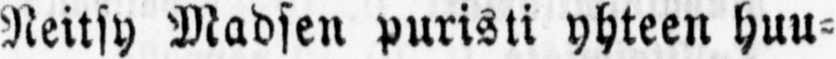Neitsy Madsen puristi yhteen huu-
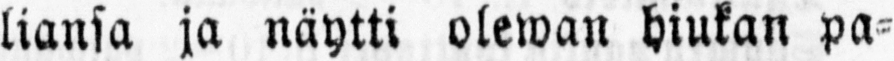liansa ja näytti olewan hiukan pa-
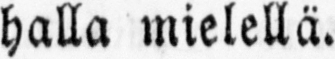halla mielellä.
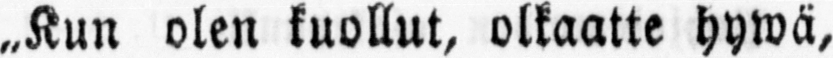„Kun olen kuollut, olkaatte hywä,
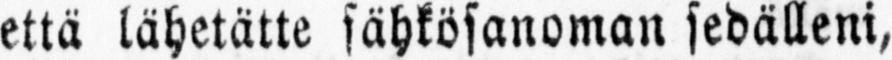että lähetätte sähkösanoman sedälleni,
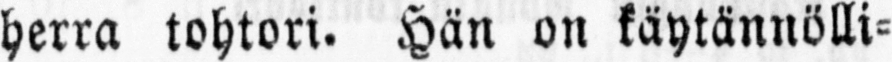herra tohtori. Hän on käytännölli-
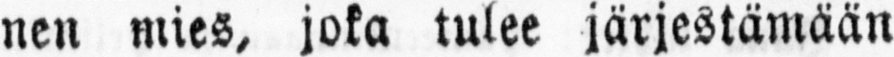nen mies, joka tulee järjestämään
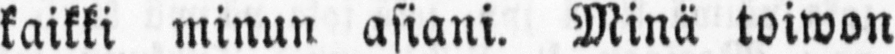kaikki minun asiani. Minä toiwon
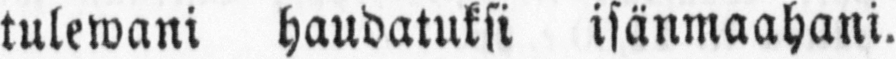tulewani haudatuksi isänmaahani.
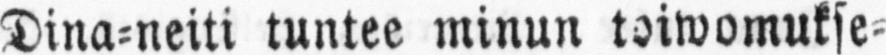Dina-neiti tuntee minun toiwomukse-
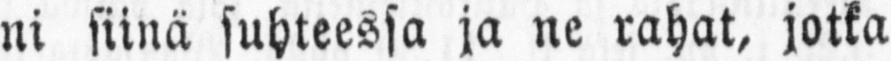ni siinä suhteessa ja ne rahat, jotka
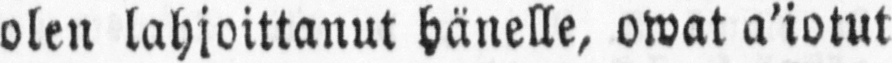olen lahjoittanut hänelle, owat a'iotut
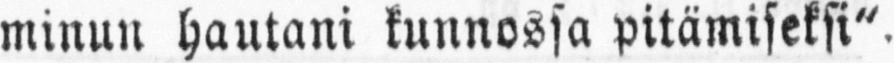minun hautani kunnossa pitämiseksi".
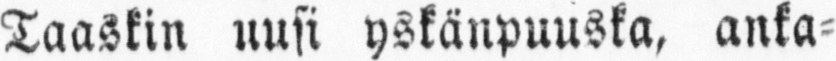Taaskin uusi yskänpuuska, anka-
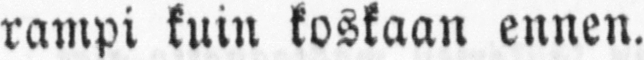rampi kuin koskaan ennen.
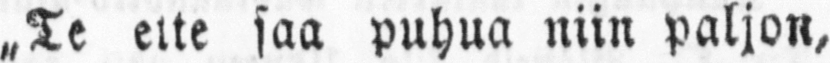„Te ette saa puhua niin paljon,
